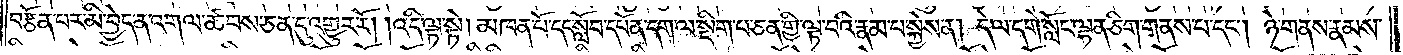བརྩོན་པར་མི་བྱེད་ན་འགལ་ཚབས་ཅན་དུ་འགྱུར་རོ། །འདི་ལྟ་སྟེ། མཁན་པོ་དང་སློབ་དཔོན་དག་ལ་སྡིག་པ་ཅན་གྱི་ལྟ་བའི་རྣམ་པ་སྐྱེས་ན། དེ་ལ་དགེ་སློང་ལྷན་ཅིག་གནས་པ་དང༌། ཉེ་གནས་རྣམས་
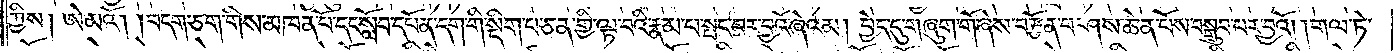ཀྱིས། ཨེ་མའོ། །བདག་ཅག་གིས་མཁན་པོ་དང་སློབ་དཔོན་དག་གི་སྡིག་པ་ཅན་གྱི་ལྟ་བའི་རྣམ་པ་སྤང་བར་བྱའོ་ཞེའམ། བྱེད་དུ་གཞུག་གོ་ཞེས་བརྩོན་པ་ཤས་ཆེན་པོས་བསྒྲུབ་པར་བྱའོ། །གལ་ཏེ་
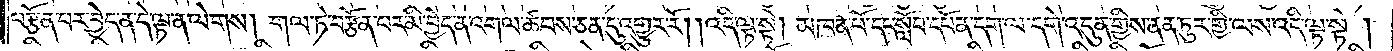བརྩོན་པར་བྱེད་ན་དེ་ལྟ་ན་ལེགས། གལ་ཏེ་བརྩོན་པར་མི་བྱེད་ན་འགལ་ཚབས་ཅན་དུ་འགྱུར་རོ། །འདི་ལྟ་སྟེ། མཁན་པོ་དང་སློབ་དཔོན་དག་ལ་དགེ་འདུན་གྱིས་ནན་ཏུར་གྱི་ལས་འདི་ལྟ་སྟེ།
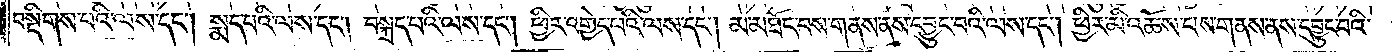བསྡིགས་པའི་ལས་དང༌། སྨད་པའི་ལས་དང༌། བསྐྲད་པའི་ལས་དང༌། ཕྱིར་འགྱེད་པའི་ལས་དང༌། མ་མཐོང་བས་གནས་ནས་དབྱུང་བའི་ལས་དང༌། ཕྱིར་མི་འཆོས་པས་གནས་ནས་དབྱུང་བའི་
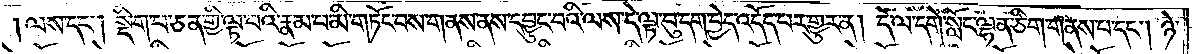ལས་དང༌། སྡིག་པ་ཅན་གྱི་ལྟ་བའི་རྣམ་པ་མི་གཏོང་བས་གནས་ནས་དབྱུང་བའི་ལས་དེ་ལྟ་བུ་དག་བྱེད་འདོད་པར་གྱུར་ན། དེ་ལ་དགེ་སློང་ལྷན་ཅིག་གནས་པ་དང༌། ཉེ་
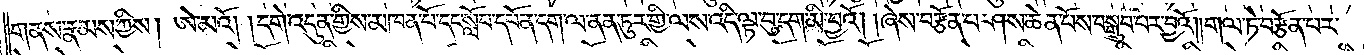གནས་རྣམས་ཀྱིས། ཨེ་མའོ། །དགེ་འདུན་གྱིས་མཁན་པོ་དང་སློབ་དཔོན་དག་ལ་ནན་ཏུར་གྱི་ལས་འདི་ལྟ་བུ་དག་མི་བྱའོ། །ཞེས་བརྩོན་པ་ཤས་ཆེན་པོས་བསྒྲུབ་པར་བྱའོ། །གལ་ཏེ་བརྩོན་པར་
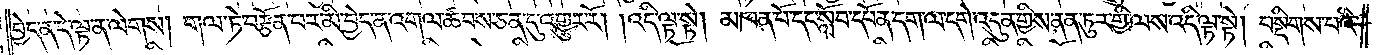བྱེད་ན་དེ་ལྟ་ན་ལེགས། གལ་ཏེ་བརྩོན་པར་མི་བྱེད་ན་འགལ་ཚབས་ཅན་དུ་འགྱུར་རོ། །འདི་ལྟ་སྟེ། མཁན་པོ་དང་སློབ་དཔོན་དག་ལ་དགེ་འདུན་གྱིས་ནན་ཏུར་གྱི་ལས་འདི་ལྟ་སྟེ། བསྡིགས་པའི་
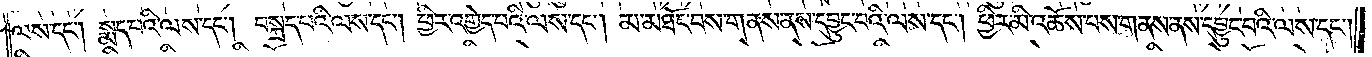ལས་དང༌། སྨད་པའི་ལས་དང༌། བསྐྲད་པའི་ལས་དང༌། ཕྱིར་འགྱེད་པའི་ལས་དང༌། མ་མཐོང་བས་གནས་ནས་དབྱུང་བའི་ལས་དང༌། ཕྱིར་མི་འཆོས་པས་གནས་ནས་དབྱུང་བའི་ལས་དང༌།
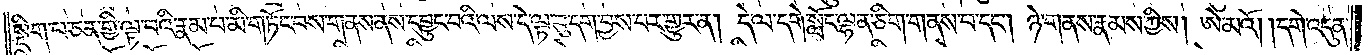སྡིག་པ་ཅན་གྱི་ལྟ་བའི་རྣམ་པ་མི་གཏོང་བས་གནས་ནས་དབྱུང་བའི་ལས་དེ་ལྟ་བུ་དག་བྱས་པར་གྱུར་ན། དེ་ལ་དགེ་སློང་ལྷན་ཅིག་གནས་པ་དང༌། ཉེ་གནས་རྣམས་ཀྱིས། ཨེ་མའོ། །དགེ་འདུན་
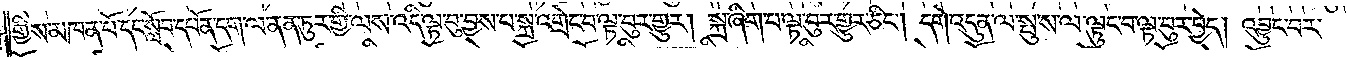གྱིས་མཁན་པོ་དང་སློབ་དཔོན་དག་ལ་ནན་ཏུར་གྱི་ལས་འདི་ལྟ་བུ་བྱས་པ་སྐྲ་འགྲེང་བ་ལྟ་བུར་གྱུར། སྐྲ་ཞིག་པ་ལྟ་བུར་གྱུར་ཅིང༌། དགེ་འདུན་ལ་སྤུ་ས་ལ་ལྟུང་བ་ལྟ་བུར་བྱེད། འབྱུང་བར་
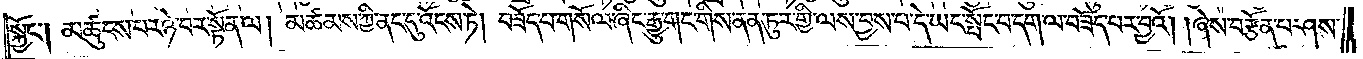སྐྱོང༌། མཚུངས་པར་ཉེ་བར་སྟོན་ལ། མཚམས་ཀྱི་ནང་དུ་འོངས་ཏེ། བཟོད་པ་གསོལ་ཞིང་རྒྱུ་གང་གིས་ནན་ཏུར་གྱི་ལས་བྱས་པ་དེ་ཡང་སྤོང་བ་དག་ལ་བཟོད་པར་བྱའོ། །ཞེས་བརྩོན་པ་ཤས་
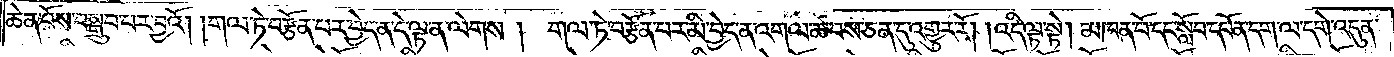ཆེན་པོས་བསྒྲུབ་པར་བྱའོ། །གལ་ཏེ་བརྩོན་པར་བྱེད་ན་དེ་ལྟ་ན་ལེགས། གལ་ཏེ་བརྩོན་པར་མི་བྱེད་ན་འགལ་ཚབས་ཅན་དུ་འགྱུར་རོ། །འདི་ལྟ་སྟེ། མཁན་པོ་དང་སློབ་དཔོན་དག་ལ་དགེ་འདུན་
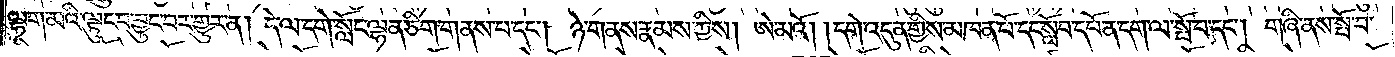ལྷག་མའི་ལྟུང་བ་བྱུང་བར་གྱུར་ན། དེ་ལ་དགེ་སློང་ལྷན་ཅིག་གནས་པ་དང༌། ཉེ་གནས་རྣམས་ཀྱིས། ཨེ་མའོ། །དགེ་འདུན་གྱིས་མཁན་པོ་དང་སློབ་དཔོན་དག་ལ་སྤོ་བ་དང༌། གཞི་ནས་སྤོ་བ་
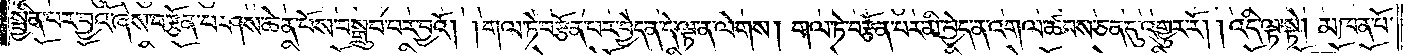སྦྱིན་པར་བྱའོ་ཞེས་བརྩོན་པ་ཤས་ཆེན་པོས་བསྒྲུབ་པར་བྱའོ། །གལ་ཏེ་བརྩོན་པར་བྱེད་ན་དེ་ལྟ་ན་ལེགས། གལ་ཏེ་བརྩོན་པར་མི་བྱེད་ན་འགལ་ཚབས་ཅན་དུ་འགྱུར་རོ། །འདི་ལྟ་སྟེ། མཁན་པོ་
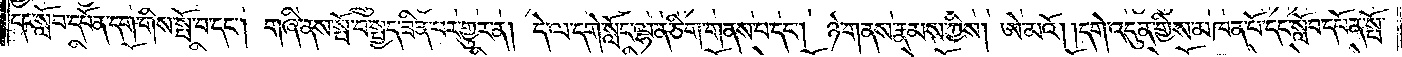དང་སློབ་དཔོན་དག་གིས་སྤོ་བ་དང༌། གཞི་ནས་སྤོ་བ་སྤྱད་ཟིན་པར་གྱུར་ན། དེ་ལ་དགེ་སློང་ལྷན་ཅིག་གནས་པ་དང༌། ཉེ་གནས་རྣམས་ཀྱིས། ཨེ་མའོ། །དགེ་འདུན་གྱིས་མཁན་པོ་དང་སློབ་དཔོན་སྤོ་
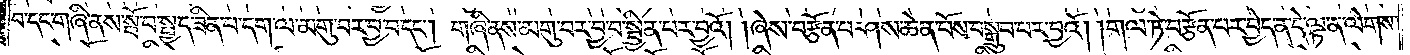བ་དང་གཞི་ནས་སྤོ་བ་སྤྱད་ཟིན་པ་དག་ལ་མགུ་བར་བྱ་བ་དང༌། གཞི་ནས་མགུ་བར་བྱ་བ་སྦྱིན་པར་བྱའོ། །ཞེས་བརྩོན་པ་ཤས་ཆེན་པོས་བསྒྲུབ་པར་བྱའོ། །གལ་ཏེ་བརྩོན་པར་བྱེད་ན་དེ་ལྟ་ན་ལེགས་
